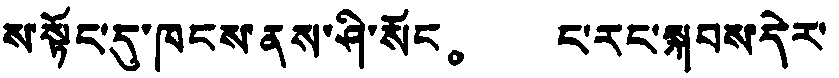ས་སྟོང་དུ་ཁངས་ནས་ཤི་སོང。ང་རང་སྐབས་དེར་
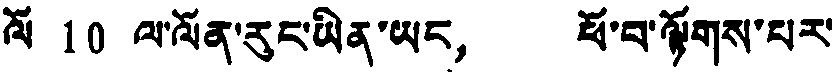ལོ 10 ལ་ལོན་རུང་ཡིན་ཡང，ཕོ་བ་ལྟོགས་པར་
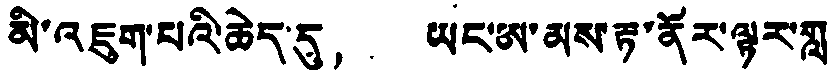མི་འཇུག་པའི་ཆེད་དུ，ཡང་ཨ་མས་རྟ་ནོར་ལྟར་གླ་
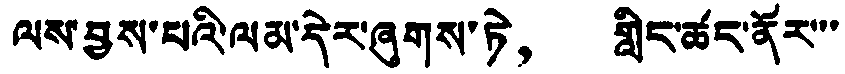ལས་བྱས་པའི་ལམ་དེར་ཞུགས་ཏེ，གླིང་ཚད་ནོར་་་
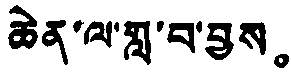ཆེན་ལ་གླ་བ་བྱས。
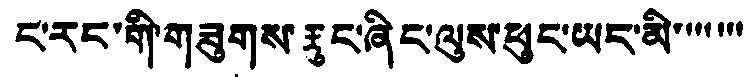ང་རང་གི་གཟུགས་རྩུང་ཞིང་ལུས་ཕུང་ཡང་མི་་་་་་་
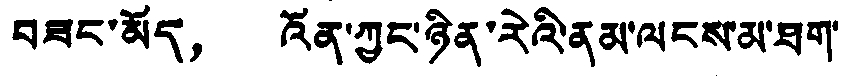བཟང་མོད，འོན་ཀྱང་ཉིན་རེའི་ནམ་ལངས་མ་ཐག་
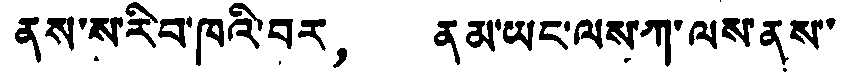ནས་ས་རིབ་ཁའི་བར，ནམ་ཡང་ལས་ཀ་ལས་ནུས་
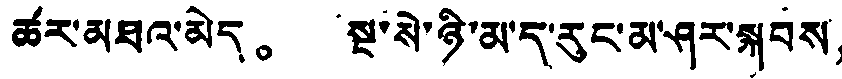ཚར་མཐའ་མེད。སྔ་སེ་ཉི་མ་ད་རུང་མ་ཤར་སྐབས，
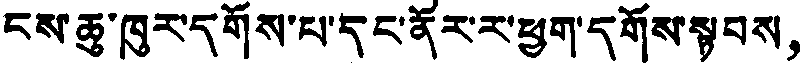ངས་ཆུ་ཁུར་དགོས་པ་དང་ནོར་ར་ཕྱག་དགོས་སྟབས，
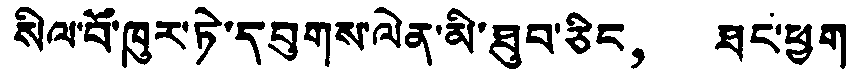སིལ་བོ་ཁུར་ཏེ་དབུགས་ལེན་མི་ཐུབ་ཅིང，ཐང་ཕྱག
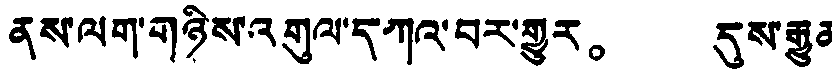ནས་ལག་གཉིས་འགུལ་དཀའ་བར་གྱུར。དུས་རྒྱུན
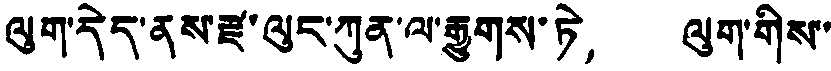ལུག་དེད་ནས་རྫ་ལུང་ཀུན་ལ་རྒྱུགས་ཏེ，ལུག་གིས་
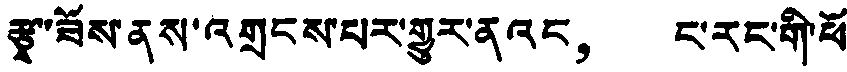རྩྭ་ཟོས་ནས་འགྲངས་པར་གྱུར་ནའང，ང་རང་གི་ཕོ་
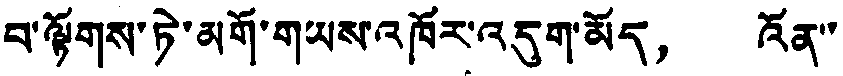བ་ལྟོགས་ཏེ་མགོ་གཡས་འཁོར་འདུག་མོད，འོན་་
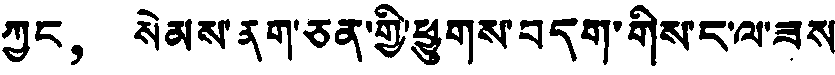ཀྱང，སེམས་ནག་ཅན་གྱི་ཕྱུགས་བདག་གིས་ད་ལ་ཟས
